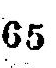65
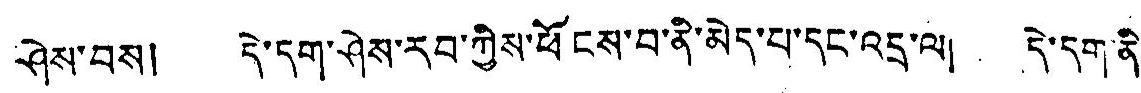ཤེས་བས། དེ་དག་ཤེས་རབ་ཀྱིས་ཕོངས་བ་ནི་མེད་པ་དང་འདྲ་ལ། དེ་དག་ནི
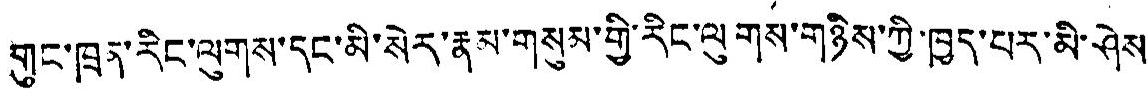གུང་ཁྲན་རིང་ལུགས་དང་མི་སེར་རྣམ་གསུམ་གྱི་རིང་ལུགས་གཉིས་ཀྱི་ཁྱད་པར་མི་ཤེས་
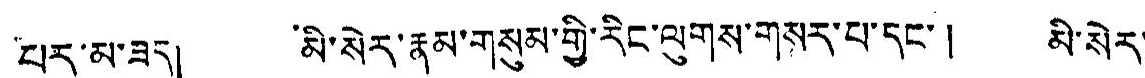པར་མ་ཟད། མི་སེར་རྣམ་གསུམ་གྱི་རིང་ལུགས་གསར་པ་དང་། མི་སེར་
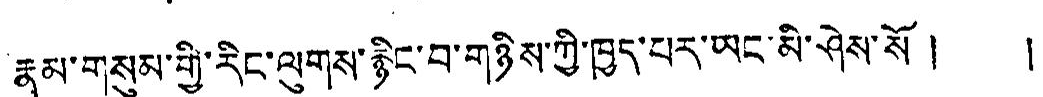རྣམ་གསུམ་གྱི་རིང་ལུགས་རྙིང་བ་གཉིས་ཀྱི་ཁྱད་པར་ཡང་མི་ཤེས་སོ ། །
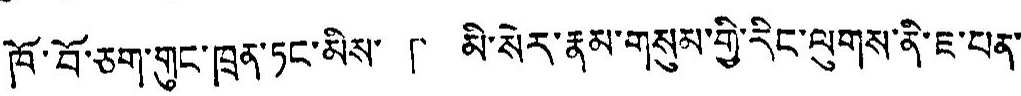ཁོ་བོ་ཅག་གུང་ཁྲན་ཏང་མིས་「 མི་སེར་རྣམ་གསུམ་གྱི་རིང་ལུགས་ནི་ཇ་པན་
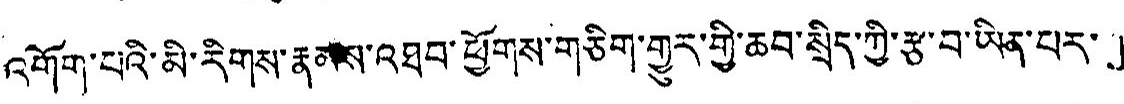འགོག་པའི་མི་རིགས་རྣམས་འཐབ་ཕྱོགས་གཅིག་གྱུར་གྱི་ཆབ་སྲིད་ཀྱི་རྩ་བ་ཡིན་པར་」
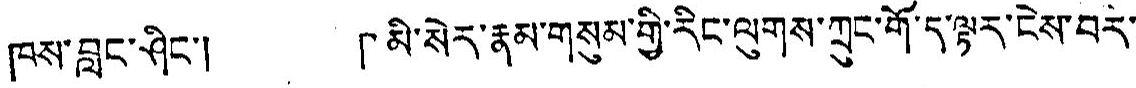ཁས་བླང་ཤིང་། 「མི་སེར་རྣམ་གསུམ་གྱི་རིང་ལུགས་ཀྲུང་གོ་ད་ལྟར་ངེས་བར་
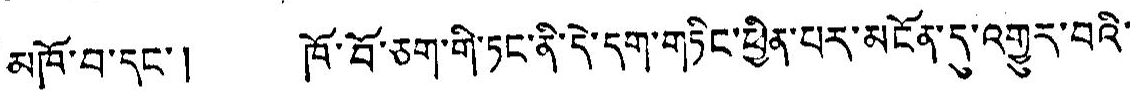མཁོ་བ་དང་། ཁོ་བོ་ཅག་གི་ཏང་ནི་དེ་དག་གཏིང་ཕྱིན་པར་མངོན་དུ་འགྱུར་བའི་
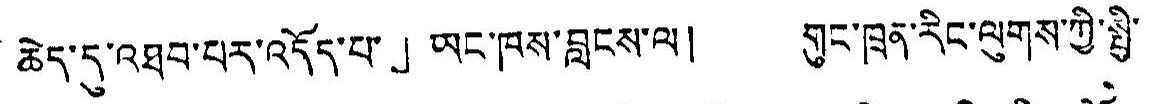ཆེད་དུ་འཐབ་པར་འདོད་པ་」ཡང་ཁས་བླངས་ལ། གུང་ཁྲན་རིང་ལུགས་ཀྱི་སྤྱི་
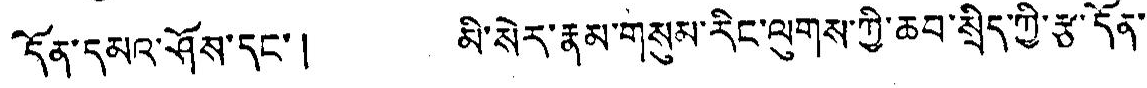དོན་དམའ་ཤོས་དང་། མི་སེར་རྣམ་གསུམ་རིང་ལུགས་ཀྱི་ཆབ་སྲིད་ཀྱི་རྩ་དོན་
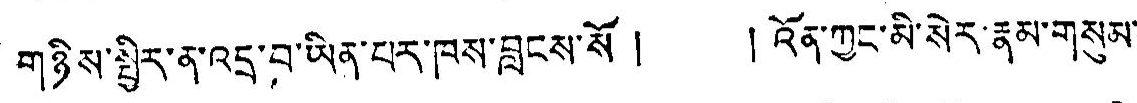གཉིས་སྤྱིར་ན་འདྲ་བ་ཡིན་པར་ཁས་བླངས་སོ ། །འོན་ཀྱང་མི་སེར་རྣམ་གསུམ་
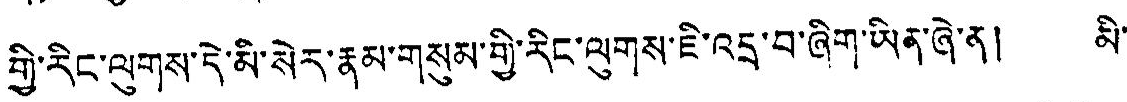གྱི་རིང་ལུགས་དེ་མི་སེར་རྣམ་གསུམ་གྱི་རིང་ལུགས་ཇི་འདྲ་བ་ཞིག་ཡིན་ཞེ་ན། མི་
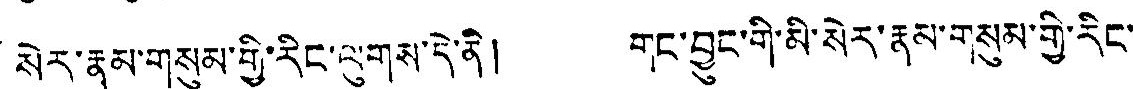སེར་རྣམ་གསུམ་གྱི་རིང་ལུགས་དེ་ནི། གང་བྱུང་གི་མི་སེར་རྣམ་གསུམ་གྱི་རིང་
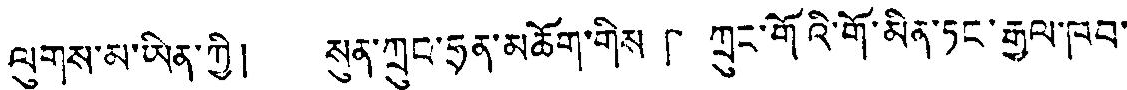ལུགས་མ་ཡིན་ཀྱི། སུན་ཀྲུང་ཧྲན་མཆོག་གིས「ཀྲུང་གོའི་གོ་མིན་ཏང་རྒྱལ་ཁབ་
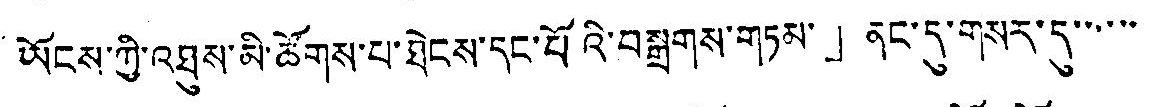ཡོངས་ཀྱི་འཐུས་མི་ཚོགས་པ་ཐེངས་དང་པོའི་བསྒྲགས་གཏམ་」ནང་དུ་གསར་དུ་་་་་་
